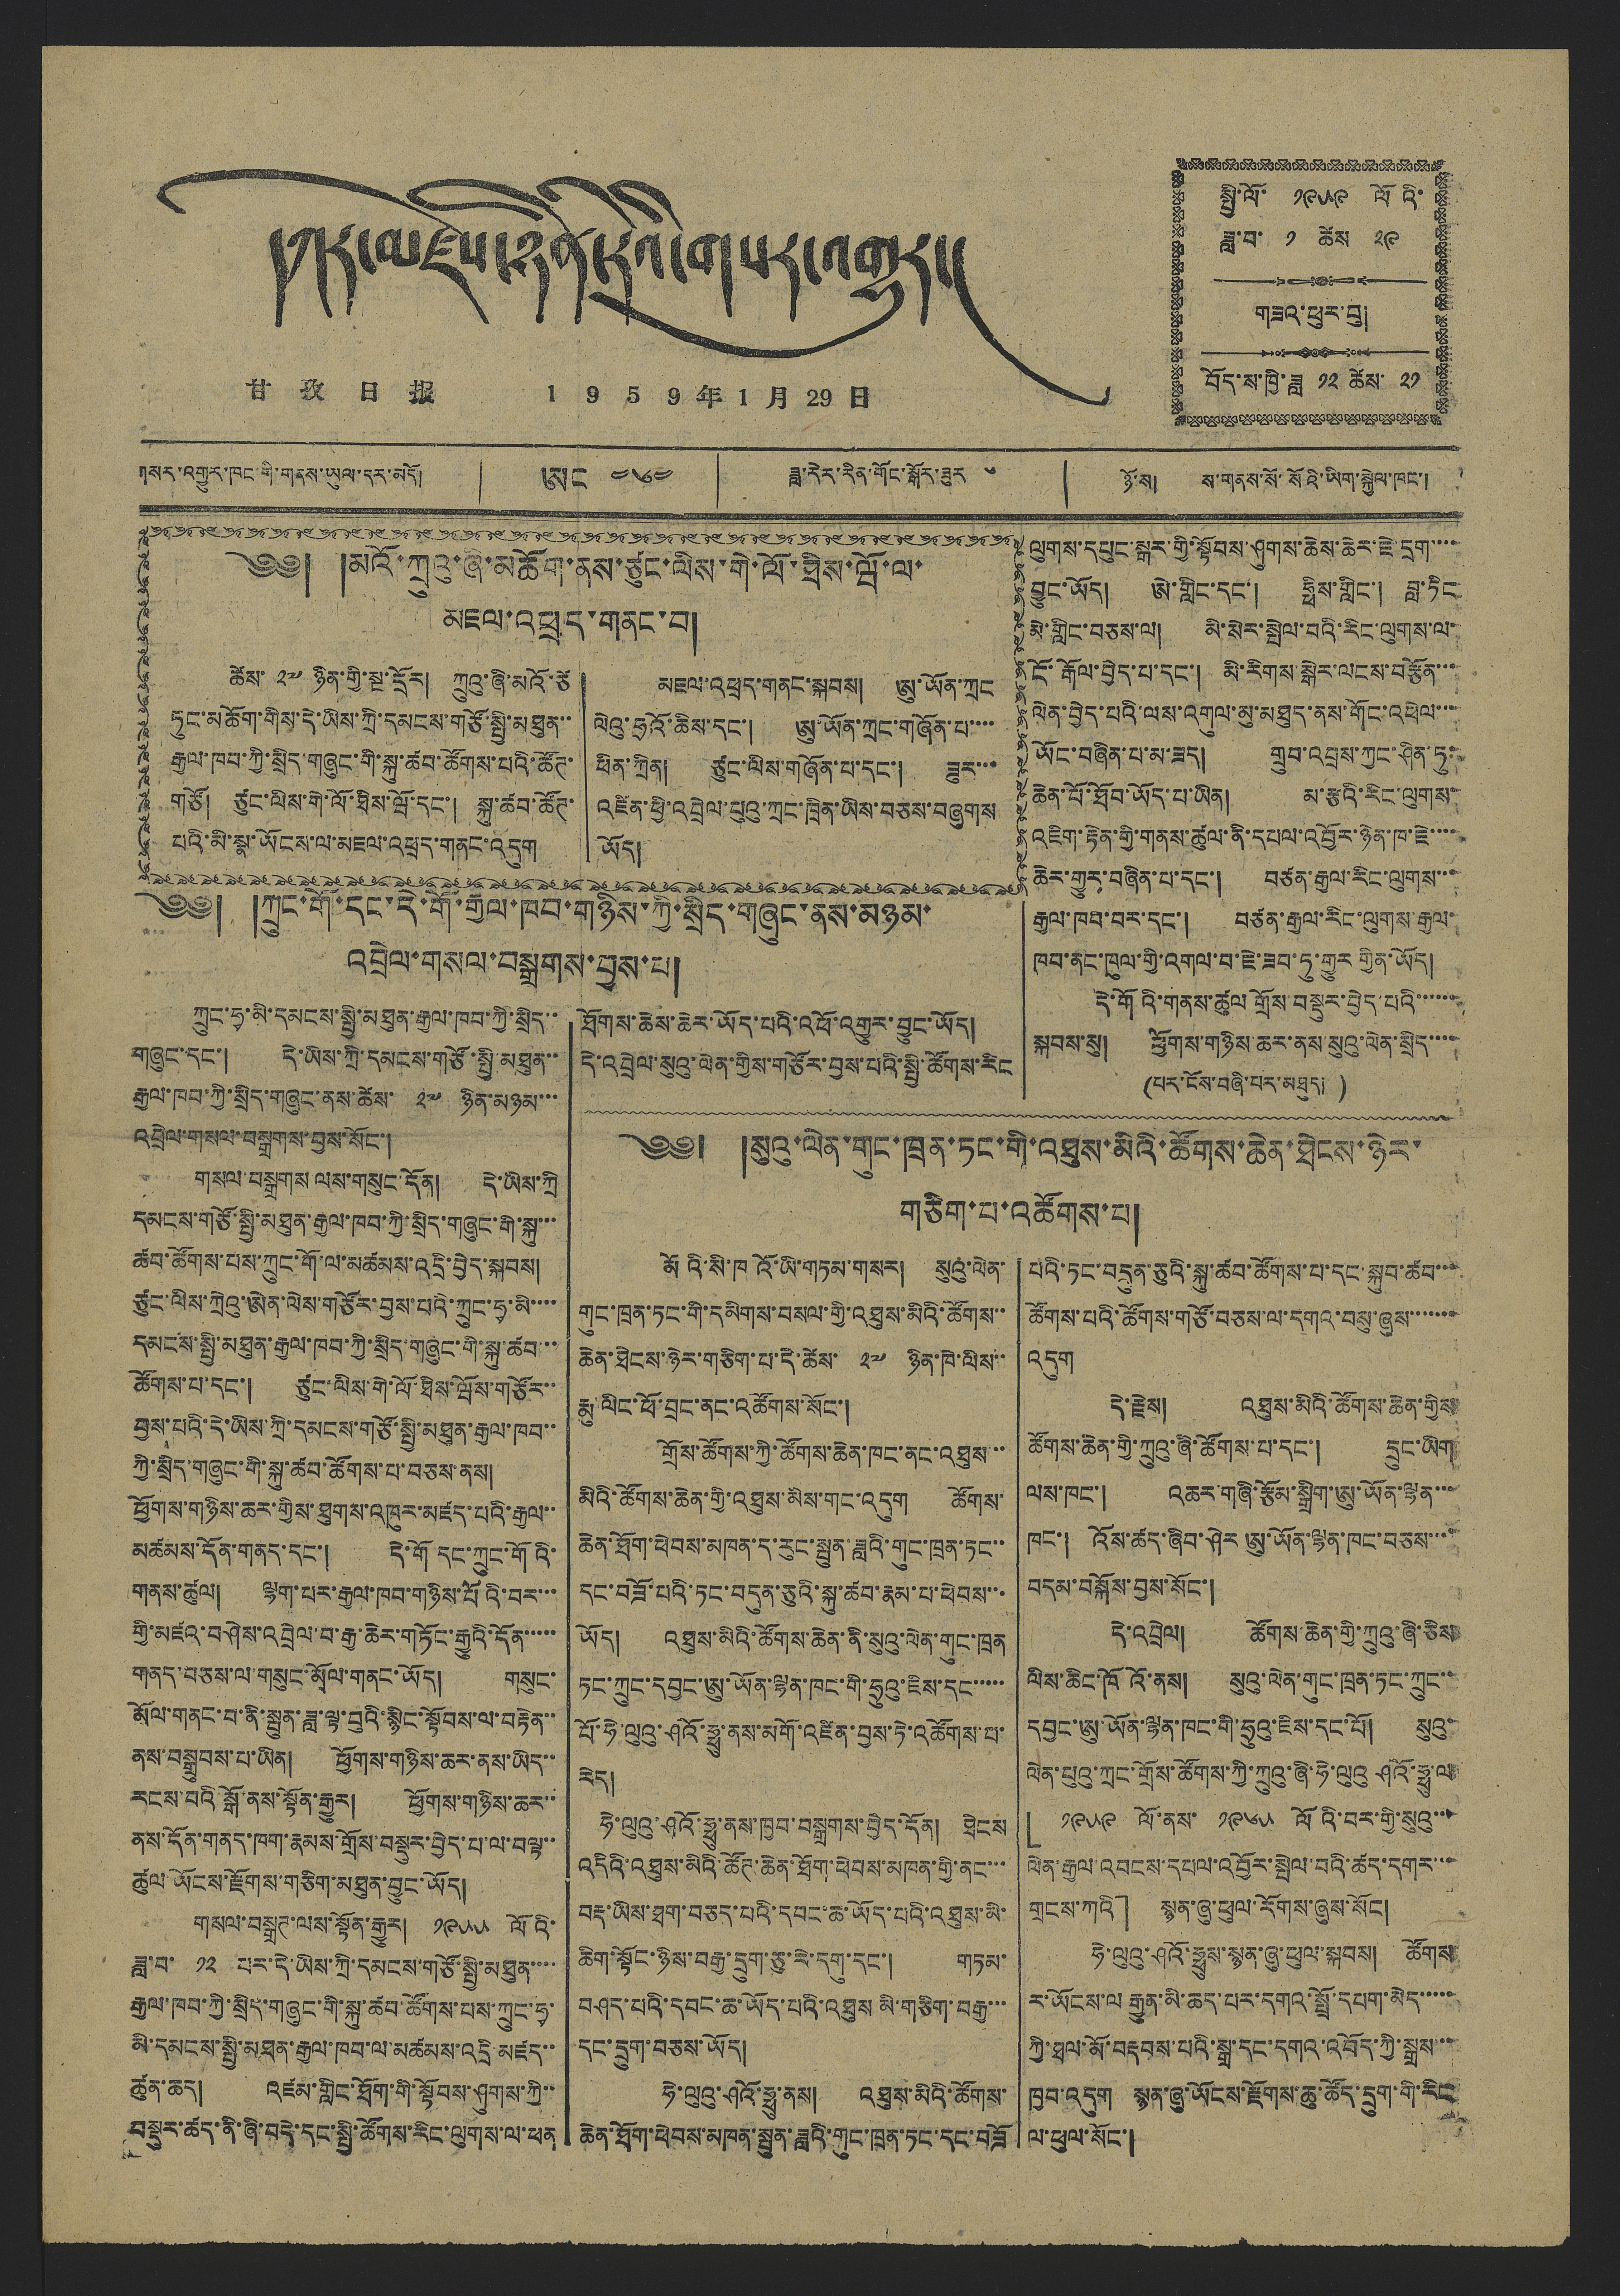དཀར་མཛེས་ཉིན་རེའི་གསར་འགྱུར།
甘 孜 日 报 1 9 5 9 年 1 月 29 日
སྤྱི་ལོ་ ༡༩༥༩ ལོའི་
ཟླ་བ་ ༡ ཚེས ༢༩
གཟའ་ཕུར་བུ།
བོད་ས་ཁྱི་ཟླ ༡༢ ཚེས ༢༡
༄༅། །མའོ་ཀྲུའུ་ཞི་མཆོག་ནས་ཙུང་ལིས་གེ་ལོ་ཐིས་ཝོ་ལ་
མཇལ་འཕྲད་གནང་བ།
ཚེས་ ༢༧ ཉིན་གྱི་སྔ་དྲོར། ཀྲུའུ་ཞི་མའོ་ཙེ
ཏུང་མཆོག་གིས་དེ་ཡིས་ཀྲི་དམངས་གཙོ་སྤྱི་མཐུན་་
རྒྱལ་ཁབ་ཀྱི་སྲིད་གཞུང་གི་སྐུ་ཚབ་ཚོགས་པའི་ཚོཊ་
གཙོ། ཙུང་ལིས་གེ་ལོ་ཐིས་ཝོ་དང་། སྐུ་ཚབ་ཚོཊ་
པའི་མི་སྣ་ཡོངས་ལ་མཇལ་འཕྲད་གནང་འདུག
མཇལ་འཕྲད་གནང་སྐབས། ཨུ་ཡོན་ཀྲང
ལེའུ་ཧྲའོ་ཆིས་དང་། ཨུ་ཡོན་ཀྲང་གཞོན་པ་་་་
ཕྱིན་ཀྲིན། ཙུང་ལིས་གཞོན་པ་དང་། ཟུར་་་
འཛིན་ཕྱི་འབྲེལ་པུའུ་ཀྲང་ཁྲིན་ཡིས་བཅས་བཞུགས
ཡོད།
༄༅། །ཀྲུང་གོ་དང་དེ་གོ་རྒྱལ་ཁབ་གཉིས་ཀྱི་སྲིད་གཞུང་ནས་མཉམ་
འབྲེལ་གསལ་བསྒྲགས་བྱས་པ།
ཀྲུང་ཧྭ་མི་དམངས་སྤྱི་མཐུན་རྒྱལ་ཁབ་ཀྱི་སྲིད་་
གཞུང་དང་། དེ་ཡིས་ཀྲི་དམངས་གཙོ་སྤྱི་མཐུན་་
རྒྱལ་ཁབ་ཀྱི་སྲིད་གཞུང་ནས་ཚེས་ ༢༧ ཉིན་མཉམ་་་
འབྲེལ་གསལ་བསྒྲགས་བྱས་སོང་།
གསལ་བསྒྲགས ལས་གསུང་དོན། དེ་ཡིས་ཀྲི
དམངས་གཙོ་སྤྱི་མཐུན་རྒྱལ་ཁབ་ཀྱི་སྲིད་གཞུང་གི་སྐུ་་་
ཚབ་ཚོགས་པས་ཀྲུང་གོ་ལ་མཚམས་འདྲི་བྱེད་སྐབས།
ཙུང་ལིས་ཀྲུའུ་ཨེན་ལེས་གཙོར་བྱས་པའི་ཀྲུང་ཧྭ་མི་་་་
དམངས་སྤྱི་མཐུན་རྒྱལ་ཁབ་ཀྱི་སྲིད་གཞུང་གི་སྐུ་ཚབ་་
ཚོགས་པ་དང་། ཙུང་ལིས་གེ་ལོ་ཐིས་ཝོས་གཙོར་་
བྱས་པའི་དེ་ཡིས་ཀྲི་དམངས་གཙོ་སྤྱི་མཐུན་རྒྱལ་ཁབ་་
ཀྱི་སྲིད་གཞུང་གི་སྐུ་ཚབ་ཚོགས་པ་བཅས་ནས།
ཕྱོགས་གཉིས་ཆར་གྱིས་ཐུགས་འཁུར་མཛད་པའི་རྒྱལ་་
མཚམས་དོན་གནད་དང་། དེ་གོ དང་ཀྲུང་གོའི་
གནས་ཚུལ། ལྷག་པར་རྒྱལ་ཁབ་གཉིས་པོའི་བར་་་
གྱི་མཛའ་བཤེས་འབྲེལ་བ་རྒྱ་ཆེར་གཏོང་རྒྱུའི་དོན་་་་་
གནད་བཅས་ལ་གསུང་མོལ་གནང་ཡོད། གསུང་
མོལ་གནང་བ་ནི་སྤུན་ཟླ་ལྟ་བུའི་སྙིང་སྟོབས་ལ་བརྟེན་་
ནས་བསྒྲུབས་པ་ཡིན། ཕྱོགས་གཉིས་ཆར་ནས་ཡིད་་
རངས་བའི སྒོ་ནས་སྟོན་རྒྱུར། ཕྱོགས་གཉིས་ཆར་་
ནས་དོན་གནད་ཁག་རྣམས་གྲོས་བསྡུར་བྱེད་པ་ལ་བལྟ་་
ཚུལ་ཡོངས་རྫོགས་གཅིག་མཐུན་བྱུང་ཡོད།
གསལ་བསྒྲཊ་ལས་སྟོན་རྒྱུར། ༡༩༥༥ ལོའི་
ཟླ་བ་ ༡༢ པར་དེ་ཡིས་ཀྲི་དམངས་གཙོ་སྤྱི་མཐུན་་་་
རྒྱལ་ཁབ་ཀྱི་སྲིད་གཞུང་གི་སྐུ་ཚབ་ཚོགས་པས་ཀྲུང་ཧྭ་
མི་དམངས་སྤྱི་མཐུན་རྒྱལ་ཁབ་ལ་མཚམས་འདྲི་མཛད་་
ཚུན་ཆད། འཛམ་གླིང་ཐོག་གི་སྟོབས་ཤུགས་ཀྱི་་
བསྡུར་ཚད་ནི་ཞི་བདེ་དང་སྤྱི་ཚོགས་རིང་ལུགས་ལ་ཕན
ཐོགས་ཆེས་ཆེར་ཡོད་པའི་འཕོ་འགྱུར་བྱུང་ཡོད།
དེ་འབྲེལ་སུའུ་ལེན་གྱིས་གཙོར་བྱས་པའི་སྤྱི་ཚོགས་རིང
ལུགས་དཔུང་སྒར་གྱི་སྟོབས་ཤུགས་ཆེས་ཆེར་ཇེ་དྲག་་་་
བྱུང་ཡོད། ཨེ་གླིང་དང་། ཧྥིས་གླིང་། བླ་ཏིང
མེ་གླིང་བཅས་ལ། མི་སེར་སྤེལ་བའི་རིང་ལུགས་ལ་
ངོ་རྒོལ་བྱེད་པ་དང་། མི་རིགས་སྒེར་ལངས་བརྩོན་་་
ལེན་བྱེད་པའི་ལས་འགུལ་མུ་མཐུད་ནས་གོང་འཕེལ་་་
ཡོང་བཞིན་པ་མ་ཟད། གྲུབ་འབྲས་ཀྱང་ཤིན་ཏུ་
ཆེན་པོ་ཐོབ་ཡོད་པ་ཡིན། མ་རྩའི་རིང་ལུགས་
འཇིག་རྟེན་གྱི་གནས་ཚུལ་ནི་དཔལ་འབྱོར་ཉེན་ཁ་ཇེ་་་་
ཆེར་གྱུར་བཞིན་པ་དང་། བཙན་རྒྱལ་རིང་ལུགས་་་
རྒྱལ་ཁབ་བར་དང་། བཙན་རྒྱལ་རིང་ལུགས་རྒྱལ་
ཁབ་ནང་ཁུལ་གྱི་འགལ་བ་ཇེ་ཟབ་ཏུ་གྱུར་གྱིན་ཡོད།
དེ་གོའི་གནས་ཚུལ གྲོས་བསྡུར་བྱེད་པའི་་་་་་
སྐབས་སུ། ཕྱོགས་གཉིས་ཆར་ནས་སུའུ་ལེན་སྲིད་་་་
(པར་ངོས་བཞི་པར་མཐུད།)
༄༅། །སུའུ་ལེན་གུང་ཁྲན་ཏང་གི་འཐུས་མིའི་ཚོགས་ཆེན་ཐེངས་ཉེར་
གཅིག་པ་འཚོགས་པ།
མོའི་སི་ཁའོ་ཡི་གཏམ་གསར། སུའུ་ལེན་
གུང་ཁྲན་ཏང་གི་དམིགས་བསལ་གྱི་འཐུས་མིའི་ཚོགས་་
ཆེན་ཐེངས་ཉེར་གཅིག་པ་དེ་ཚེས་ ༢༧ ཉིན་ཁེ་ལིས་་
རྨུ་ལིང་ཕོ་བྲང་ནང་འཚོགས་སོང་།
གྲོས་ཚོགས་ཀྱི་ཚོགས་ཆེན་ཁང་ནང་འཐུས་་
མིའི་ཚོགས་ཆེན་གྱི་འཐུས་མིས་གང་འདུག ཚོགས་
ཆེན་ཐོག་ཕེབས་མཁན་ད་རུང་སྤུན་ཟླའི་གུང་ཁྲན་ཏང་་
དང་བཟོ་པའི་ཏང་བདུན་ཅུའི་སྐུ་ཚབ་རྣམ་པ་ཕེབས་་་
ཡོད། འཐུས་མིའི་ཚོགས་ཆེན་ནི་སུའུ་ལེན་གུང་ཁྲན
ཏང་ཀྲུང་དབྱང་ཨུ་ཡོན་ལྷན་ཁང་གི་ཧྲུའུ་ཇིས་དང་་་་་
པོ་ཧེ་ལུའུ་ཤའོ་ཧྥུ་ནས་མགོ་འཛིན་བྱས་ཏེ་འཚོགས་པ་
རེད།
ཧེ་ལུའུ་ཤའོ་ཧྥུ་ནས་ཁྱབ་བསྒྲགས་བྱེད་དོན། ཐེངས
འདིའི་འཐུས་མིའི་ཚོཊ་ཆེན་ཐོག་ཕེབས་མཁན་གྱི་ནང་་་
བརྡ་ཡིས་ཐག་བཅད་པའི་དབང་ཆ་ཡོད་པའི་འཐུས་མི་
ཆིག་སྟོང་ཉིས་བརྒྱ་དྲུག་ཅུ་རེ་དགུ་དང་། གཏམ་
བཤད་པའི་དབང་ཆ་ཡོད་པའི་འཐུས མི་གཅིག་བརྒྱ་་་
དང་དྲུག་བཅས་ཡོད།
ཧེ་ལུའུ་ཤའོ་ཧྥུ་ནས། འཐུས་མིའི་ཚོགས་
ཆེན་ཐོག་ཕེབས་མཁན་སྤུན་ཟླའི་གུང་ཁྲན་ཏང་དང་བཟོ
པའི་ཏང་བདྲུན་ཅུའི་སྐུ་ཚབ་ཚོགས་པ་དང་སྐུབ་ཚབ་་་
ཚོགས་པའི་ཚོགས་གཙོ་བཅས་ལ་དགའ་བསུ་ཞུས་་་་་་་
འདུག
དེ་རྗེས། འཐུས་མིའི་ཚོགས་ཆེན་གྱིས
ཚོགས་ཆེན་གྱི་ཀྲུའུ་ཞི་ཚོགས་པ་དང་། དྲུང་ཡིག
ལས་ཁང་། འཆར་གཞི་རྩོམ་སྒྲིག་ཨུ་ཡོན་ལྷན་་་
ཁང་། འོས་ཚད་ཞིབ་ཤེར ཨུ་ཡོན་ལྷན་ཁང་བཅས་་་
བདམ་བསྐོས་བྱས་སོང་།
དེ་འབྲེལ། ཚོགས་ཆེན་གྱི་ཀྲུའུ་ཞི་ཅིས
ལིས་ཆིང་ཁོའོ་ནས། སུའུ་ལེན་གུང་ཁྲན་ཏང་ཀྲུང་་
དབྱང་ཨུ་ཡོན་ལྷན་ཁང་གི་ཧྲུའུ་ཇིས་དང་པོ། སུའུ་
ལེན་པུའུ་ཀྲང་གྲོས་ཚོགས་ཀྱི་ཀྲུའུ་ཞི་ཧེ་ལུའུ་ཤའོ་ཧྥུ་ལ
「༡༩༥༩ ལོ་ནས་ ༡༩༦༥ ལོའི་བར་གྱི་སུའུ་་་
ལེན་རྒྱལ་འབངས་དཔལ་འབྱོར་སྤེལ་བའི་ཚད་དགར་་་
གྲངས་ཀའི」 སྙན་ཞུ་ཕུལ་རོགས་ཞུས་སོང་།
ཧེ་ལུའུ་ཤའོ་ཧྥུས་སྙན་ཞུ་ཕུལ་སྐབས། ཚོགས
ར་ཡོངས་ལ རྒྱུན་མི་ཆད་པར་དགའ་སྤྲོ་དཔག་མེད་་་་་
ཀྱི་ཐལ་མོ་བརྡབས་པའི་སྒྲ་དང་དགའ་འབོད་ཀྱི་སྒྲས་་་
ཁྱབ་འདུག སྙན་ཞུ་ཡོངས་རྫོགས་ཆུ་ཚོད་དྲུག་གི་རིང
ལ་ཕུལ་སོང་།
